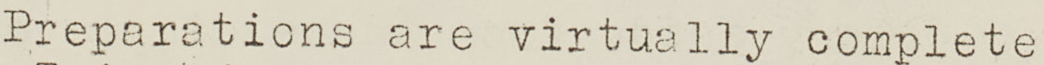Preparations are virtually complete
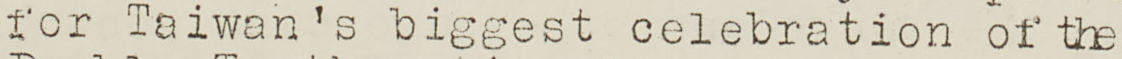for Taiwan's biggest celebration of the
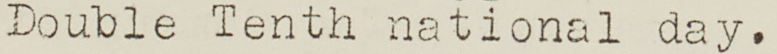Double Tenth national day.
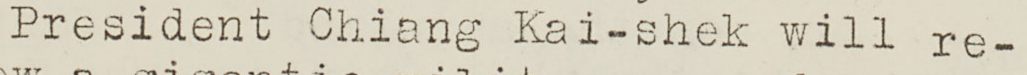President Chiang Kai-shek will re-
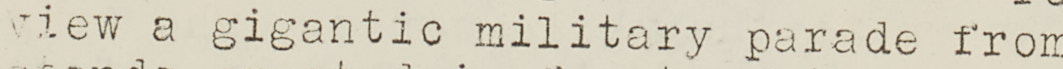view a gigantic military parade from
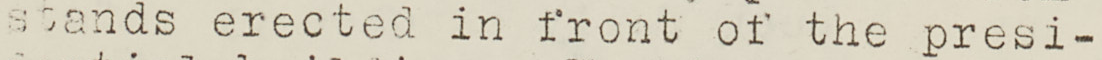stands erected in front of the presi-
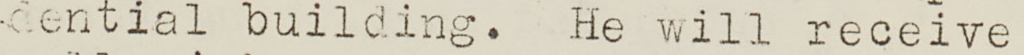dential building. He will receive
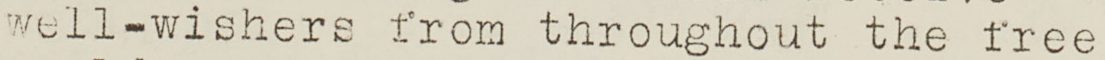well-wishers from throughout the free
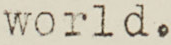world.
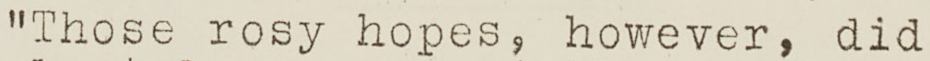"Those rosy hopes, however, did
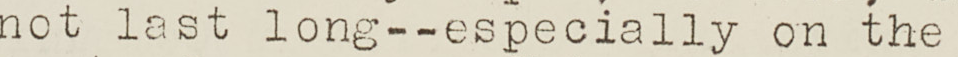not last long--especially on the
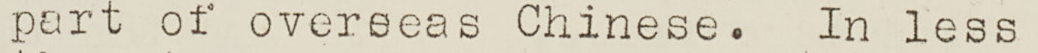part of overseas Chinese. In less
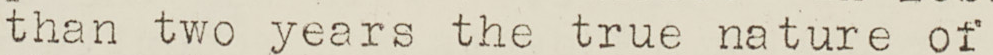than two years the true nature of
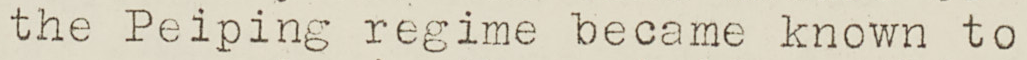the Peiping regime became known to
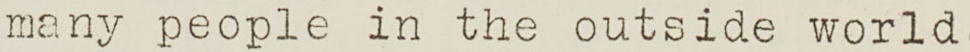many people in the outside world
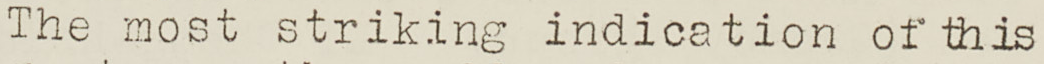The most striking indication of this
